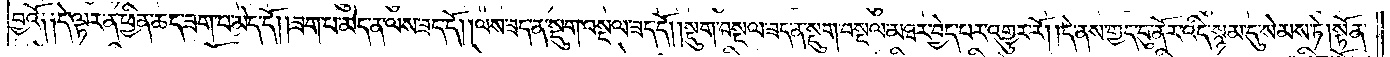བྱའོ༑ ༑དེ་ལྟར་ན་ཕྱིན་ཆད་ཟག་པ་མེད་དོ། །ཟག་པ་མེད་ན་ལས་ཟད་དོ། །ལས་ཟད་ན་སྡུག་བསྔལ་ཟད་དོ། །སྡུག་བསྔལ་ཟད་ན་སྡུག་བསྔལ་མཐར་བྱེད་པར་འགྱུར་རོ། །དེ་ནས་གྱད་བུ་ནོར་འདི་སྙམ་དུ་སེམས་ཏེ། སྟོན་
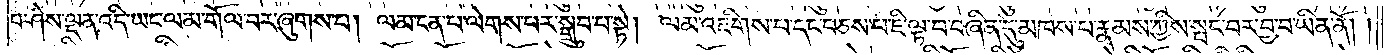པ་ཤེས་ལྡན་འདི་ཡང་ལམ་གོལ་བར་ཞུགས་པ། ལམ་ངན་པ་ལེགས་པར་སྒྲུབ་པ་སྟེ། ལམ་འཇིགས་པ་དང་བཅས་པ་ཇི་ལྟ་བ་བཞིན་དུ་མཁས་པ་རྣམས་ཀྱིས་སྤང་བར་བྱ་བ་ཡིན་ནོ། །
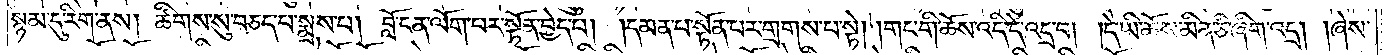སྙམ་དུ་རིག་ནས། ཚིགས་སུ་བཅད་པ་སྨྲས་པ། བློ་ངན་ལོག་པར་སྟོན་བྱེད་པ། །དམན་པ་སྟོན་པར་གྲགས་པ་སྟེ། །གང་གི་ཆོས་འདི་དེ་འདྲ་བ། །དེ་ཡི་ཆོས་མིན་ཅི་ཞིག་འདྲ། །ཞེས་
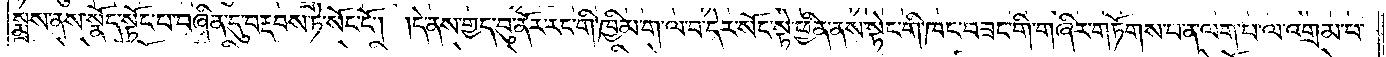སྨྲས་ནས་སྣོད་སྟོང་པ་བཞིན་དུ་བརྡབས་ཏེ་སོང་ངོ༌། །དེ་ནས་གྱད་བུ་ནོར་རང་གི་ཁྱིམ་ག་ལ་བ་དེར་སོང་སྟེ་ཕྱིན་ནས་སྟེང་གི་ཁང་བཟང་གི་གཞིར་གཏོགས་པ་ན་ལག་པ་ལ་འགྲམ་པ་
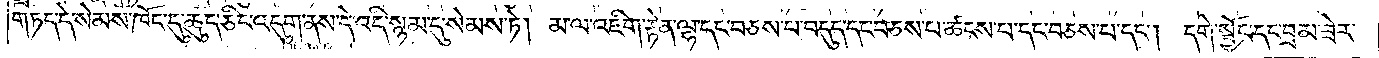གཏད་དེ་སེམས་ཁོང་དུ་ཆུད་ཅིང་འདུག་ནས་དེ་འདི་སྙམ་དུ་སེམས་ཏེ། མ་ལ་འཇིག་རྟེན་ལྷ་དང་བཅས་པ་བདུད་དང་བཅས་པ་ཚངས་པ་དང་བཅས་པ་དང༌། དགེ་སྦྱོང་དང་བྲམ་ཟེར་
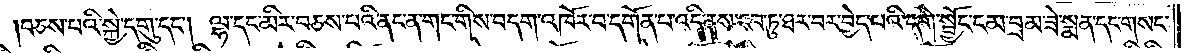བཅས་པའི་སྐྱེ་དགུ་དང༌། ལྷ་དང་མིར་བཅས་པའི་ནང་ན་གང་གིས་བདག་འཁོར་བ་དགོན་པ་འདི་ནས་རབ་ཏུ་ཐར་བར་བྱེད་པའི་དགེ་སྦྱོང་ངམ་བྲམ་ཟེ་སྨན་དང་གསང་
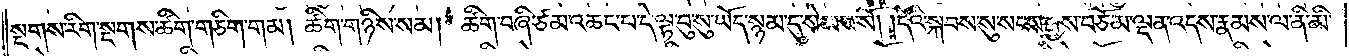སྔགས་རིག་སྔགས་ཚིག་གཅིག་གམ། ཚིག་གཉིས་སམ། ཚིག་བཞི་ཙམ་འཆང་པ་དེ་ལྟ་བུ་སུ་ཡོད་སྙམ་དུ་སེམས་སོ། །དེའི་སྐབས་སུ་སངས་རྒྱས་བཅོམ་ལྡན་འདས་རྣམས་ལ་ནི་མི་
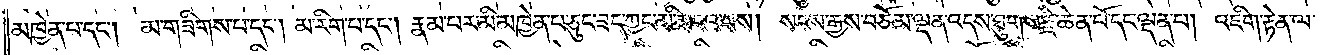མཁྱེན་པ་དང༌། མ་གཟིགས་པ་དང༌། མ་རིག་པ་དང༌། རྣམ་པར་མི་མཁྱེན་པ་ཅུང་ཟད་ཀྱང་མི་མངའ་བས། སངས་རྒྱས་བཅོམ་ལྡན་འདས་ཐུགས་རྗེ་ཆེན་པོ་དང་ལྡན་པ། འཇིག་རྟེན་ལ་
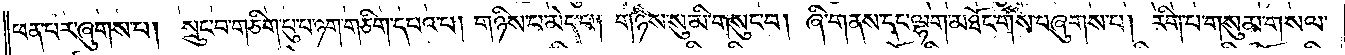ཕན་པར་ཞུགས་པ། སྲུང་བ་གཅིག་པུ་པ་ཉག་གཅིག་དཔའ་པ། གཉིས་པ་མེད་པ། གཉིས་སུ་མི་གསུང་བ། ཞི་གནས་དང་ལྷག་མཐོང་གིས་བཞུགས་པ། རིག་པ་གསུམ་གསལ་
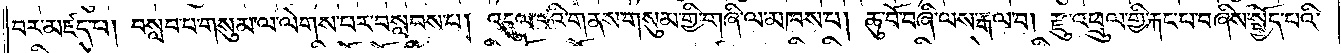བར་མཛད་པ། བསླབ་པ་གསུམ་ལ་ལེགས་པར་བསླབས་པ། འདུལ་བའི་གནས་གསུམ་གྱི་གཞི་ལ་མཁས་པ། ཆུ་བོ་བཞི་ལས་རྒལ་བ། རྫུ་འཕྲུལ་གྱི་རྐང་པ་བཞིས་སྤྱོད་པའི་
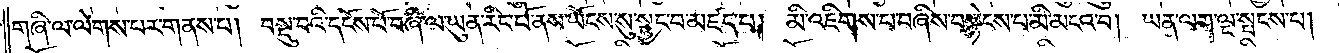གཞི་ལ་ལེགས་པར་གནས་པ། བསྡུ་བའི་དངོས་པོ་བཞི་ལ་ཡུན་རིང་པོ་ནས་ཡོངས་སུ་སྦྱང་བ་མཛད་པ། མི་འཇིགས་པ་བཞིས་བསྙེངས་པ་མི་མངའ་བ། ཡན་ལག་ལྔ་སྤངས་པ།
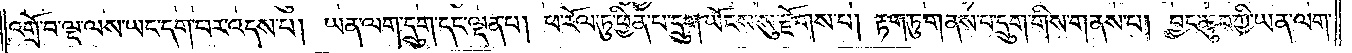འགྲོ་བ་ལྔ་ལས་ཡང་དག་པར་འདས་པ། ཡན་ལག་དྲུག་དང་ལྡན་པ། ཕ་རོལ་ཏུ་ཕྱིན་པ་དྲུག་ཡོངས་སུ་རྫོགས་པ། རྟག་ཏུ་གནས་པ་དྲུག་གིས་གནས་པ། བྱང་ཆུབ་ཀྱི་ཡན་ལག་
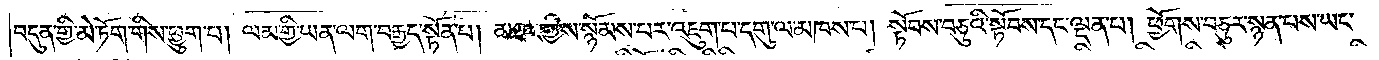བདུན་གྱི་མེ་ཏོག་གིས་ཕྱུག་པ། ལམ་གྱི་ཡན་ལག་བརྒྱད་སྟོན་པ། མཐར་གྱིས་སྙོམས་པར་འཇུག་པ་དགུ་ལ་མཁས་པ། སྟོབས་བཅུའི་སྟོབས་དང་ལྡན་པ། ཕྱོགས་བཅུར་སྙན་པས་ཡང་
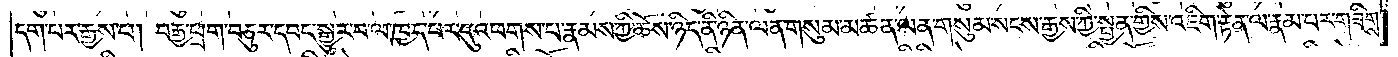དག་པར་རྒྱས་པ། བརྒྱ་ཕྲག་བཅུར་དབང་སྒྱུར་བ་ལ་ཁྱད་པར་དུ་འཕགས་པ་རྣམས་ཀྱི་ཆོས་ཉིད་ནི་ཉིན་ལན་གསུམ་མཚན་ལན་གསུམ་སངས་རྒྱས་ཀྱི་སྤྱན་གྱིས་འཇིག་རྟེན་ལ་རྣམ་པར་གཟིགས་
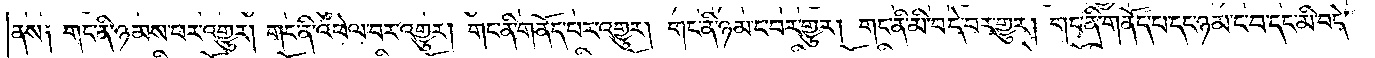ནས༑ གང་ནི་ཉམས་པར་འགྱུར། གང་ནི་འཕེལ་བར་འགྱུར། གང་ནི་གནོད་པར་འགྱུར། གང་ནི་ཉམ་ང་བར་འགྱུར། གང་ནི་མི་བདེ་བར་གྱུར། གང་ནི་གནོད་པ་དང་ཉམ་ང་བ་དང་མི་བདེ་
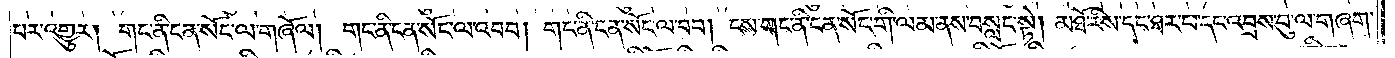པར་འགྱུར། གང་ནི་ངན་སོང་ལ་གཞོལ། གང་ནི་ངན་སོང་ལ་འབབ། གང་ནི་ངན་སོང་ལ་བབ། ངས་གང་ནི་ངན་སོང་གི་ལམ་ནས་བསླང་སྟེ། མཐོ་རིས་དང་ཐར་པ་དང་འབྲས་བུ་ལ་གཞག་
